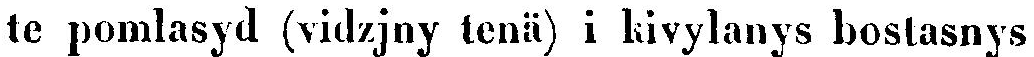te pomlasyd (vidzjny tenä) i kivylanys bostasnys
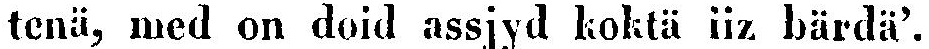tenä, med on doid assjyd koktä iiz bärdä'.
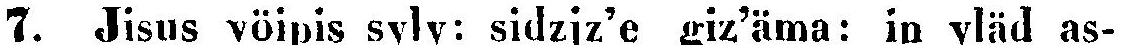7. Jisus vöipis syly: sidzjz'e giz'äma: in yläd as-
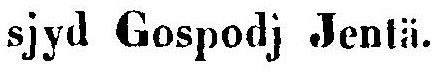sjyd Gospodj Jentä.
